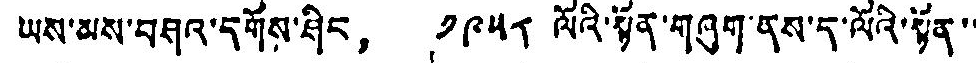ཡས་མས་བཤའ་དགོས་ཤིང， ༡༩༥༨ ལོའི་སྟོན་གཞུག་ནས་ད་ལོའི་སྟོན་་
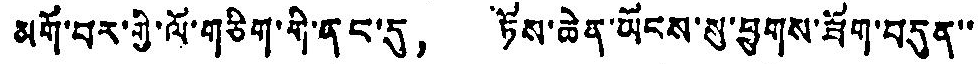མགོ་བར་གྱི་ལོ་གཅིག་གི་ནང་དུ， ཏོས་ཆེན་ཡོངས་སུ་ཕྱུགས་ཟོག་བདུན་་
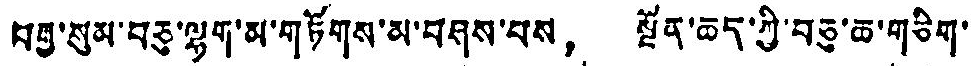བརྒྱ་སུམ་བཅུ་ལྷག་མ་གཏོགས་མ་བཤས་པས， སྔོན་ཆད་ཀྱི་བཅུ་ཆ་གཅིག་
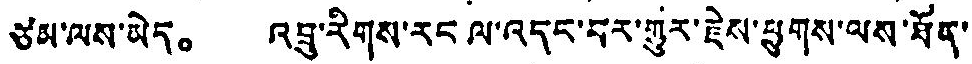ཙམ་ལས་མེད。 འབྲུ་རིགས་རང ལ་འདང་བར་གྱུར་རྗེས་ཕྱུགས་ལས་ཐོན་
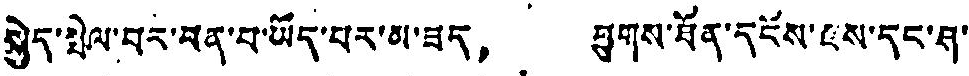སྐྱེད་སྤེལ་བར་ཕན་པ་ཡོད་པར་མ་ཟད， ཕྱུགས་ཐོན་དངོས་ཇུས་དང་ཤ་
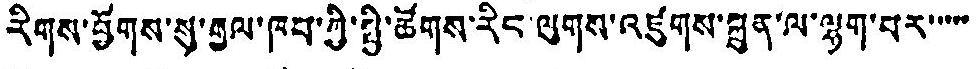རིགས་ཕྱོགས་སུ་རྒྱལ་ཁབ་ཀྱི་སྤྱི་ཚོགས་རིང་ལུགས་འཛུགས་སྐྲུན་ལ་ལྷག་པར་་་་་
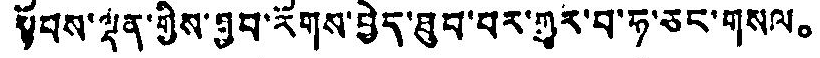སྟོབས་ལྡན་གྱིས་ཐུབ་རོགས་བྱེད་ཐུབ་པར་གྱུར་བ་ཧ་ཅང་གསལ。
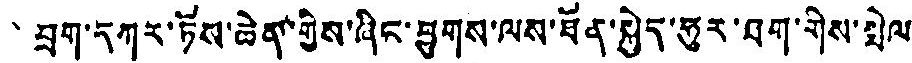བྲག་དཀར་ཏོས་ཆེན་གྱིས་ཞིང་ཕྱུགས་ལས་ཐོན་སྐྱེད་ཧུར་ཐག་གིས་སྤེལ
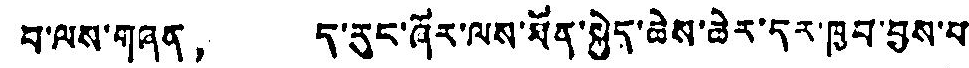བ་ལས་གཞན， ད་རུང་ཞོར་ལས་ཐོན་སྐྱེད་ཆེས་ཆེར་དར་ཁྱབ་བྱས་པ་
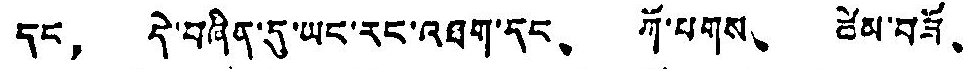དང， དེ་བཞིན་དུ་ཡང་རང་འཐག་དང、 ཀོ་པགས、 ཚེམ་བཟོ、
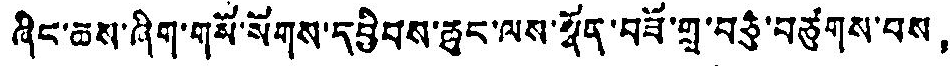ཞིང་ཆས་ཞིག་གསོ་སོགས་དབྱིབས་ཆུང་ལས་སྣོན་བཟོ་གྲྭ་བཅུ་བཙུགས་པས，
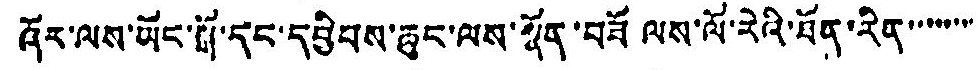ཞོར་ལས་ཡོང་སྒོ་དང་དབྱིབས་ཆུང་ལས་སྣོན་བཟོ ལས་ལོ་རེའི་ཐོན་རིན་་་་་་་་
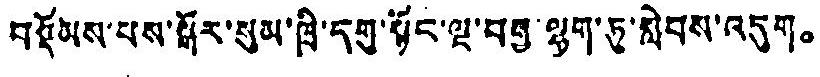བསྡོམས་པས་སྒོར་སུམ་ཁྲི་དགུ་སྟོང་ལྔ་བརྒྱ་ལྷག་ཏུ་སླེབས་འདུག。
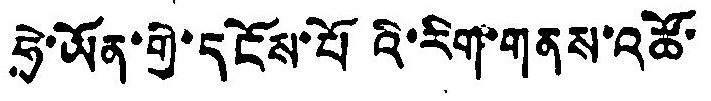ཧྲེ་ཡོན་གྱི་དངོས་པོའི་རིག་གནས་འཚོ་
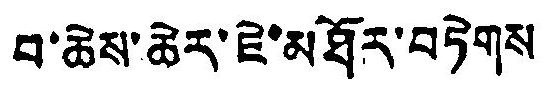བ་ཆེས་ཆེར་ཇེ་མཐོར་བཏེགས
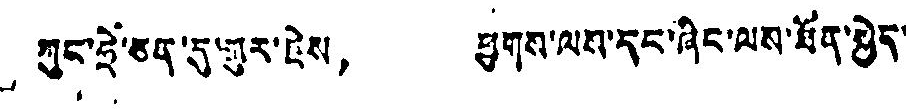ཀུང་ཧྲེ་ཅན་དུ་གྱུར་རྗེས， ཕྱུགས་ལས་དང་ཞིང་ལས་ཐོན་སྐྱེད་
